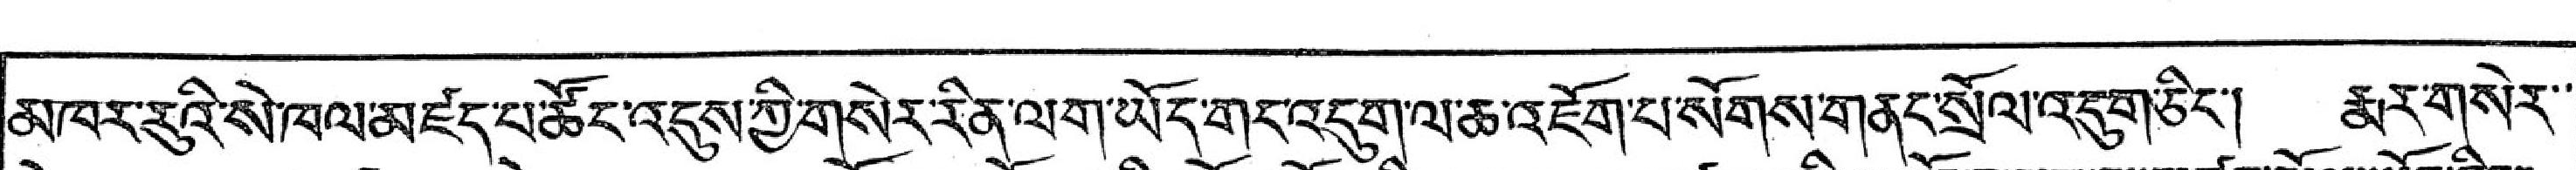མཁར་རུའི་སེ་ཁལ་མཛད་པ་ཚོང་འདུས་ཀྱི་གསེར་རིན་ལག་ཡོད་གང་འདུག་ལ་ཆ་འཇོག་པ་སོགས་གནང་སྲོལ་འདུག་ཅིང་། རྨར་གསེར་་
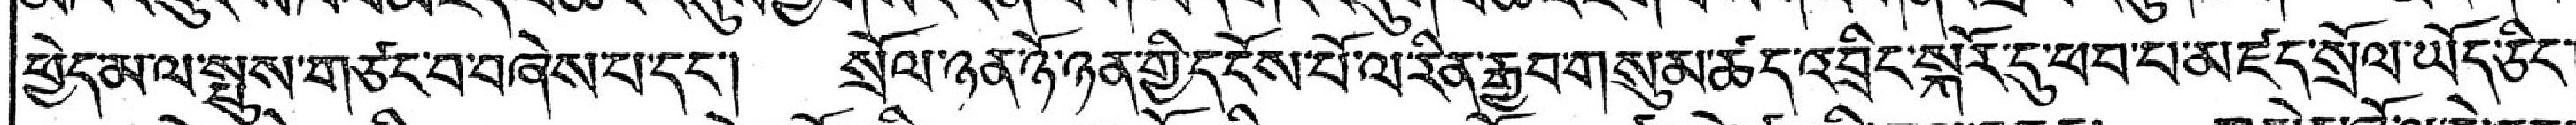ཕྱེད་མ་ལ་སྤུས་གཙང་བ་བཞེས་པ་དང་། སྲོལ་ཉན་ཉོ་ཉན་གྱི་དངོས་པོ་ལ་རིན་རྒྱབ་གསུམ་ཚད་འབྲིང་སྐོར་དུ་ཕབ་པ་མཛད་སྲོལ་ཡོད་ཅིང་།
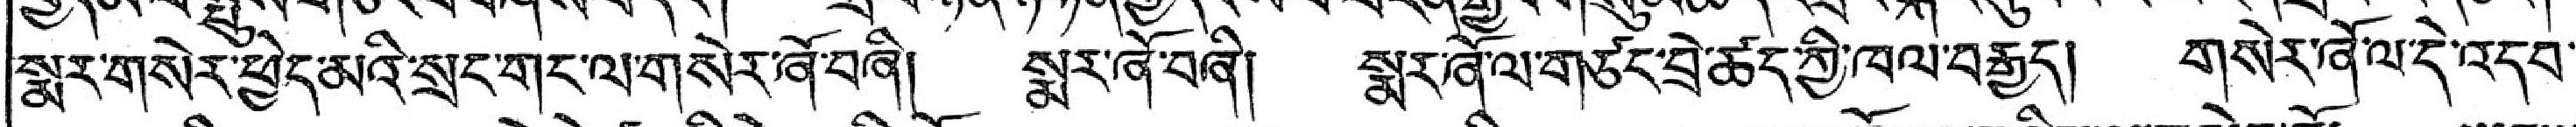སྨར་གསེར་ཕྱེད་མའི་སྲང་གང་ལ་གསེར་ཞོ་བཞི། སྨར་ཞོ་བཞི། སྨར་ཞོ་ལ་གཙང་བྲེ་ཚད་ཀྱི་ཁལ་བརྒྱད། གསེར་ཞོ་ལ་དེ་འདབ་
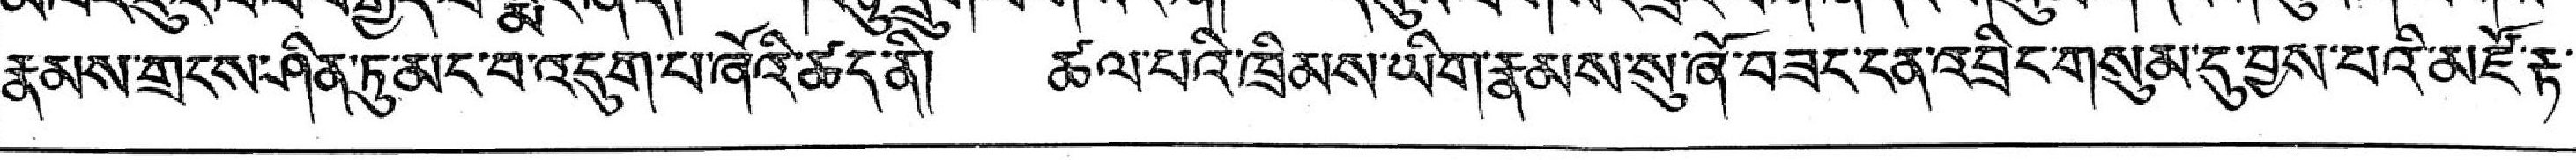རྣམས་གྲངས་ཤིན་ཏུ་མང་བ་འདུག་པ་ཞོའི་ཚད་ནི། ཚལ་པའི་ཁྲིམས་ཡིག་རྣམས་སུ་ཞོ་བཟང་ངན་འབྲིང་གསུམ་དུ་བྱས་པའི་མཛོ་རྟ་་
